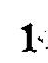1
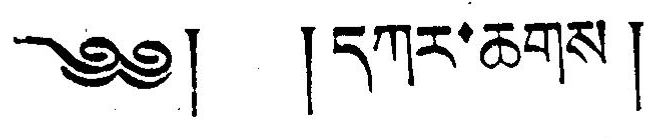༄༅། །དཀར་ཆགས།
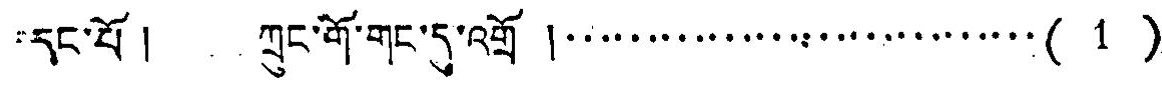དང་པོ ། ཀྲུང་གོ་གང་དུ་འགྲོ །...............................（1）
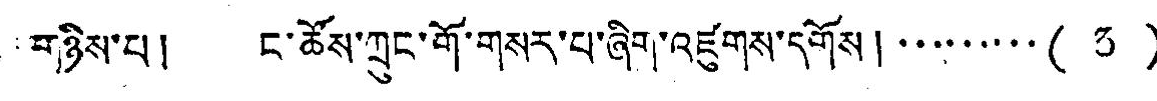གཉིས་པ། ང་ཚོས་ཀྲུང་གོ་གསར་པ་ཞིག་འཛུགས་དགོས།.........（3）
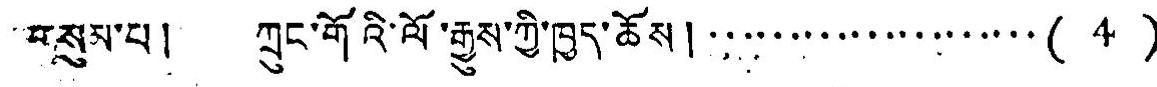གསུམ་པ། ཀྲུང་གོའི་ལོ་རྒྱུས་ཀྱི་ཁྱད་ཆོས།....................（4）
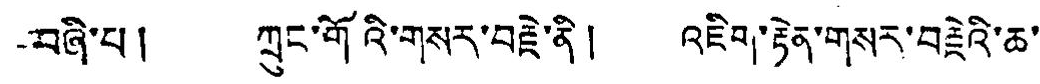བཞི་པ། ཀྲུང་གོའི་གསར་བརྗེ་ནི། འཇིག་རྟེན་གསར་བརྗེའི་ཆ་
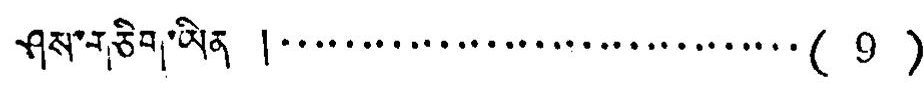ཤས་གཅིག་ཡིན །.................................（9）
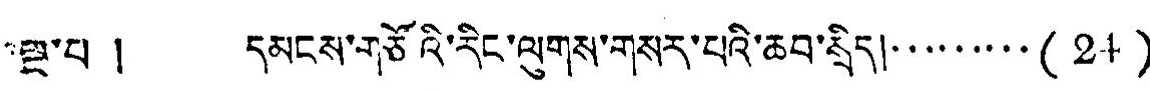སྔ་པ། དམངས་གཙོའི་རིང་ལུགས་གསར་པའི་ཆབ་སྲིད།........（21）
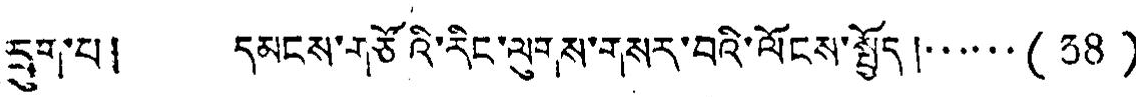དྲུག་པ། དམངས་གཙོའི་རིང་ལུགས་གསར་བའི་ལོངས་སྤྱོད།.....（38）
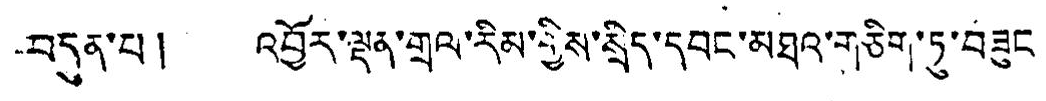བདུན་པ། འབྱོར་ལྡན་གྲལ་རིམ་གྱིས་སྲིད་དབང་མཐའ་གཅིག་ཏུ་བཟུང
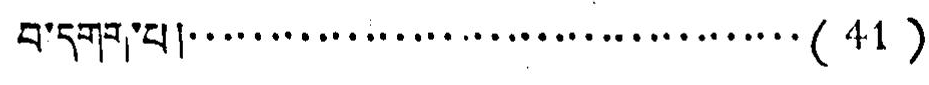བ་དགག་པ།.......................................（41）
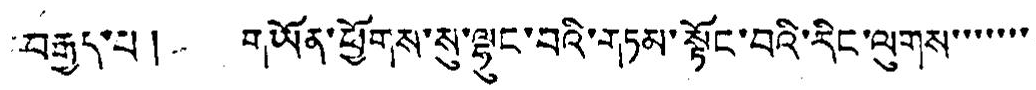བརྒྱད་པ། གཡོན་ཕྱོགས་སུ་ལྷུང་བའི་གཏམ་སྟོང་བའི་རིང་ལུགས་་་་་་་
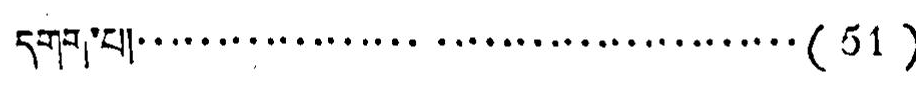དགབ་པ།......................................（51）
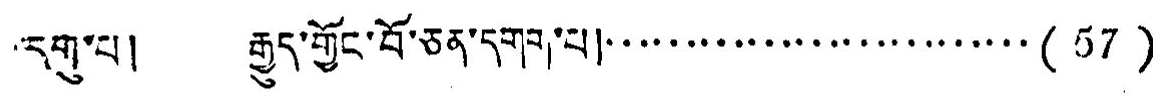དགུ་པ། རྒྱུད་གྱོང་བོ་ཅན་དགག་པ།...........................（57）
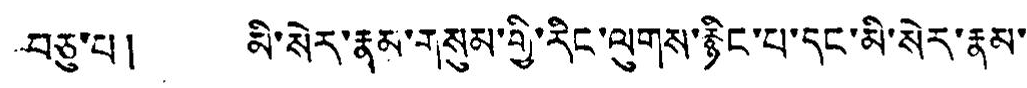བཅུ་པ། མི་སེར་རྣམ་གསུམ་གྱི་རིང་ལུགས་རྙིང་པ་དང་མི་སེར་རྣམ་
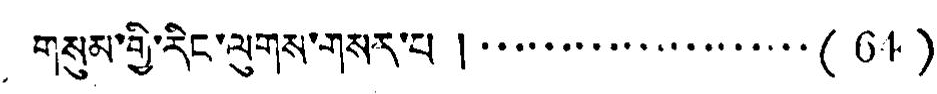གསུམ་གྱི་རིང་ལུགས་གསར་པ །....................（64）
